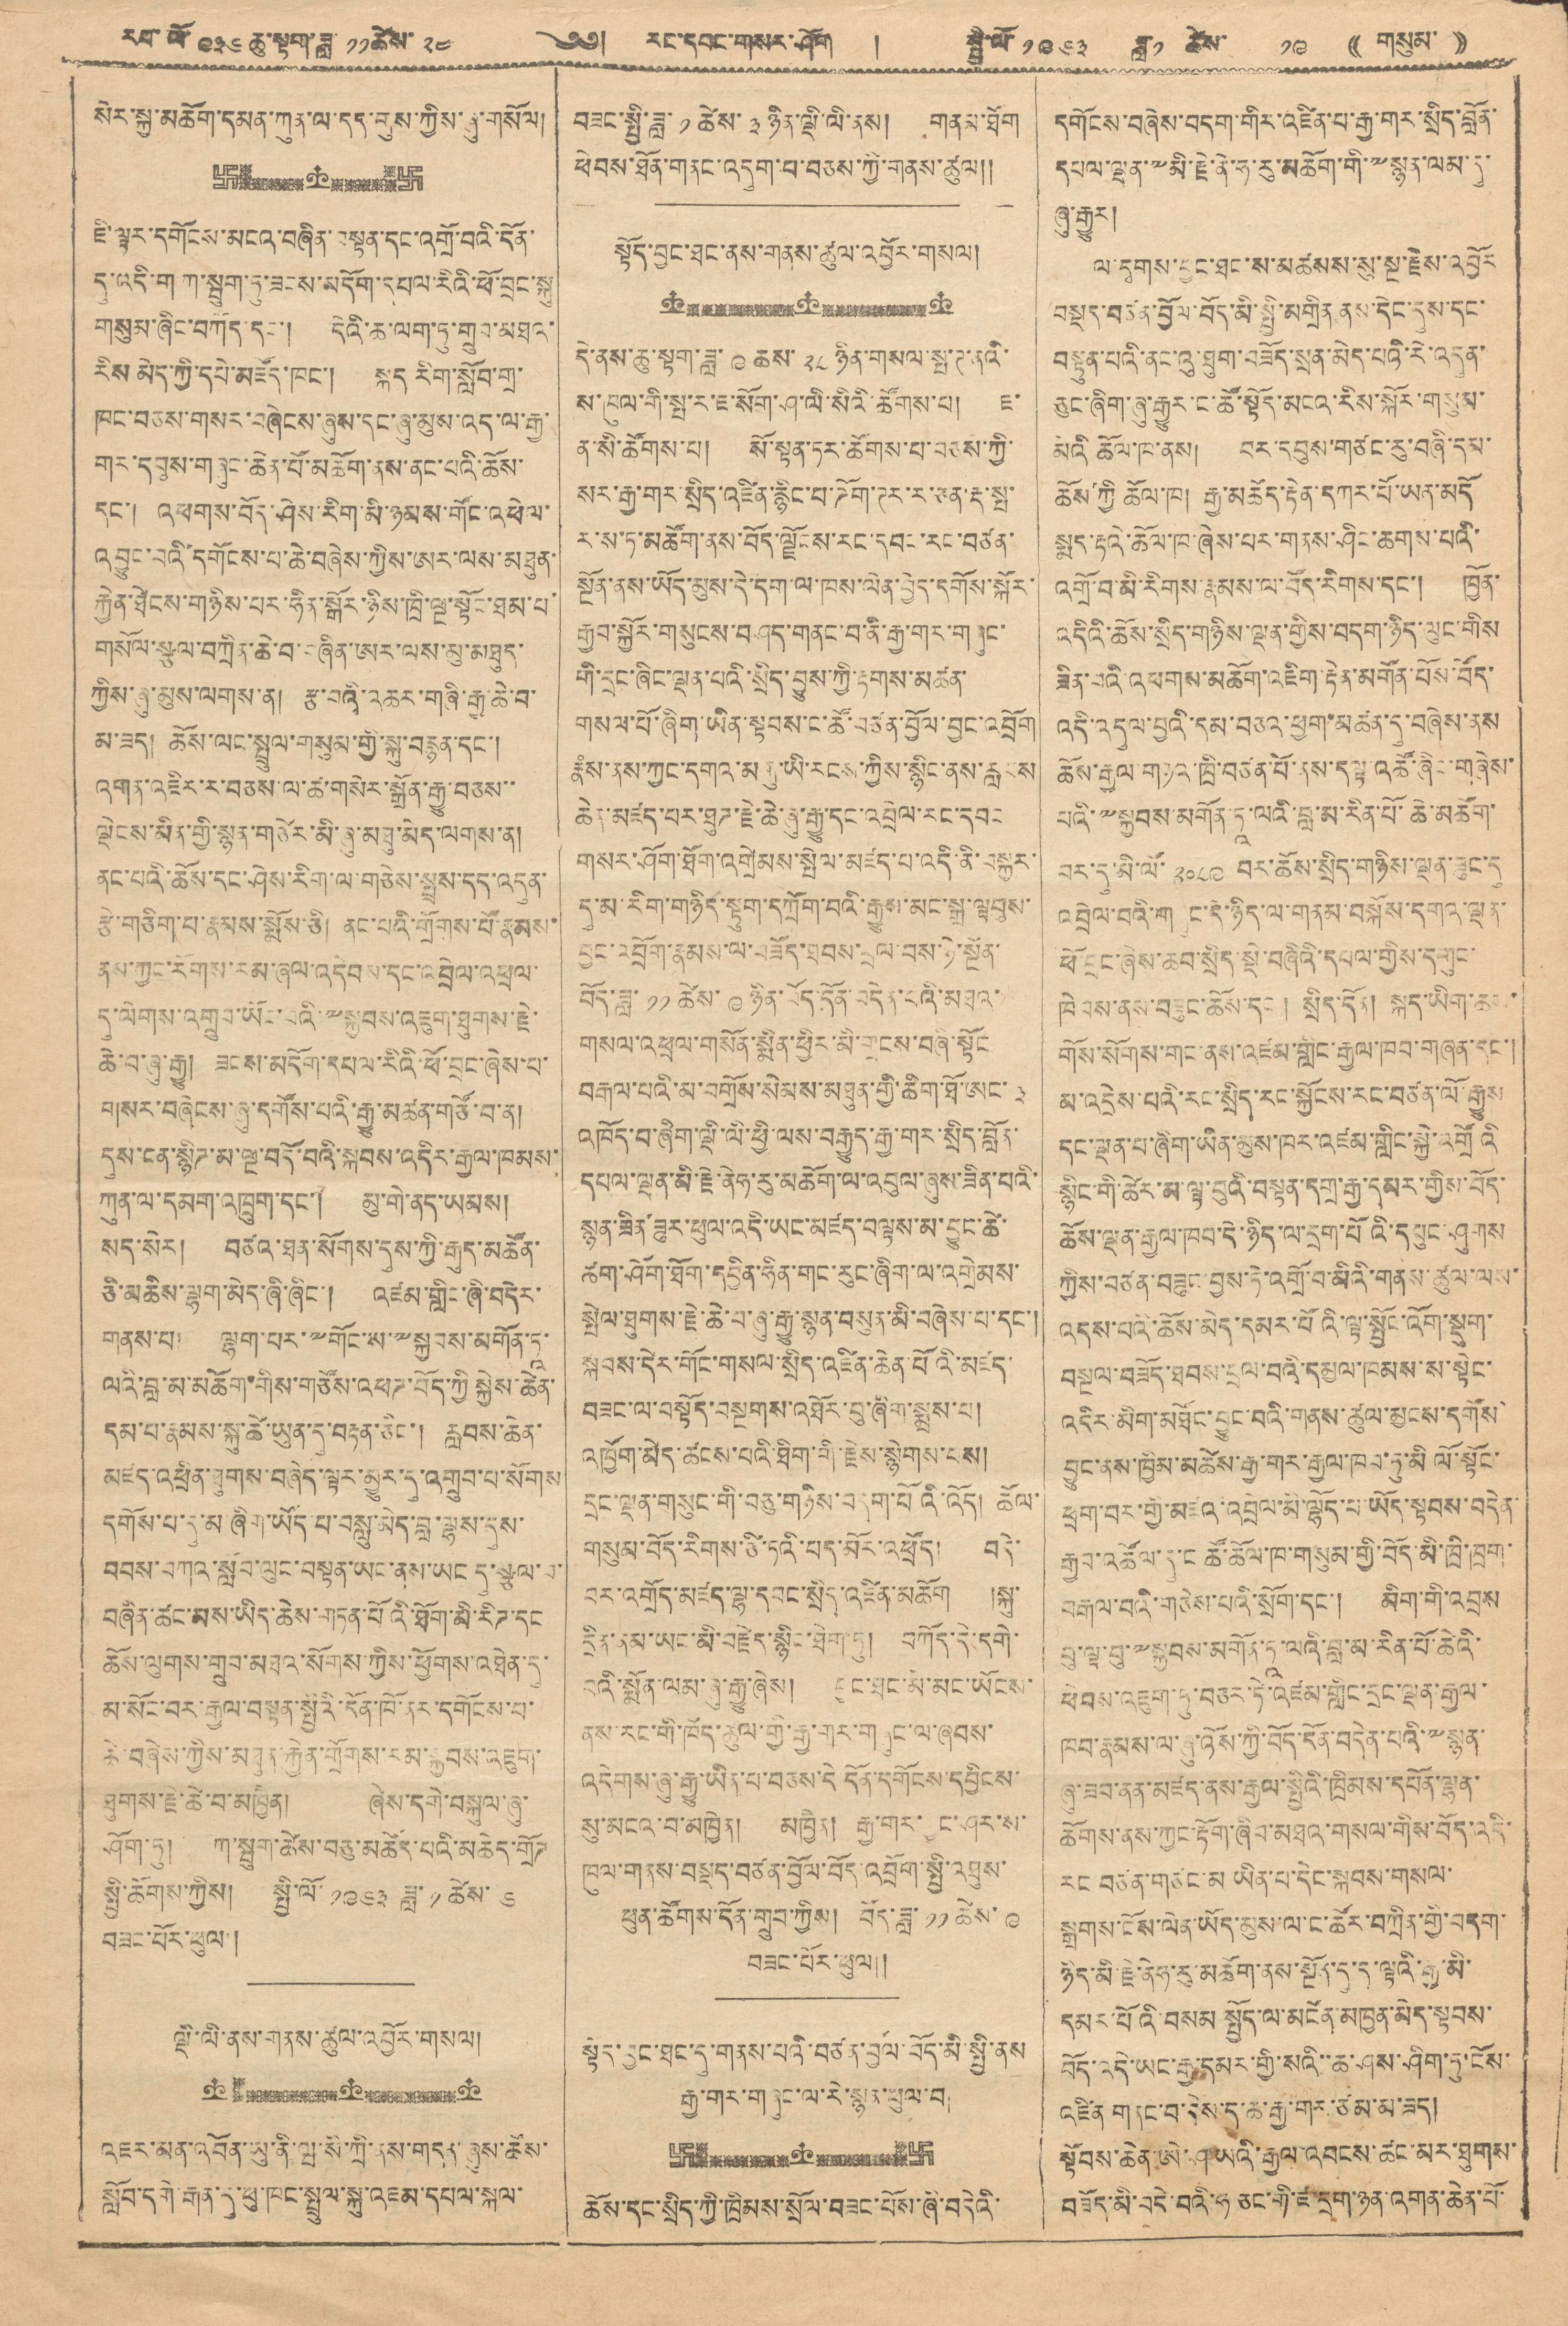རབ་ལོ་ ༩༣༦ ཆུ་སྟག་ཟླ་ ༡༡ ཚེས་ ༢༤ ༄༅། རང་དབང་གསར་ཤོག ། སྤྱི་ལོ་ ༡༩༦༣ ཟླ་ ༡ ཚེས་ ༡༩ (( གསུམ་ ))
སེར་སྐྱ་མཆོག་དམན་ཀུན་ལ་དད་གུས་ཀྱིས་ཞུ་གསོལ།
ཇི་ལྟར་དགོངས་མངའ་བཞིན་བསྟན་དང་འགྲོ་བའི་དོན་
དུ་འདི་ག་ཀ་སྦུག་ཏུ་ཟངས་མདོག་དཔལ་རིའི་ཕོ་བྲང་སྐུ
གསུམ་ཞིང་བཀོད་དང་། དེའི་ཆ་ལག་ཏུ་གྲུབ་མཐའ་
རིས མེད་ཀྱི་དཔེ་མཛོད་ཁང་། སྐད རིག་སློབ་གྲ་
ཁང་བཅས་གསར་བཞེངས་ཞུས་དང་ཞུ་མུས་འདི་ལ་རྒྱ་
གར་དབུས་གཞུང་ཆེན་པོ་མཆོག་ནས་ནང་པའི་ཆོས་
དང་། འཕགས་བོད་ཤེས་རིག་མི་ཉམས་གོང་འཕེལ་
འབྱུང་བའི་དགོངས་པ་ཆེ་བཞེས་ཀྱིས་ཨར་ལས་མཐུན་
རྐྱེན་ཐེངས་གཉིས་པར་ཧིན་སྒོར་ཉིས་ཁྲི་ལྔ་སྟོང་ཐམ་པ་
གསོལ་སྩལ་བཀྲིན་ཆེ་བ་བཞིན་ཨར་ལས་མུ་མཐུད་
ཀྱིས་ཞུ་མུས་ལགས་ན། རྩ་བའི་འཆར་གཞི་རྒྱ་ཆེ་བ་
མ་ཟད། ཆོས་ལང་སྤྲུལ་གསུམ་གྱི་སྐུ་བརྙན་དང་།
འགན་འཇིར་ར་བཅས་ལ་ཚ་གསེར་སྒྲོན་རྒྱུ་བཅས་་
ལྡེངས་མིན་གྱི་སྙན་གཙེར་མི་ཞུ་མཐུ་མེད་ལགས་ན།
ནང་པའི་ཆོས་དང་ཤེས་རིག་ལ་གཅེས་སྤྲས་དད་འདུན་
རྩེ་གཅིག་པ་རྣམས་སྨོས་ཅི། ནང་པའི་གྲོགས་པོ་རྣམས་
ནས་ཀྱང་རོགས་རམ་ཞལ་འདེབས་དང་འབྲེལ་འཕྲལ་
དུ་ལེགས་འགྲུབ་ཡོང་བའི་༸སྐྱབས་འཇུག་ཐུགས་རྗེ་
ཆེ་བ་ཞུ་རྒྱུ། ཟངས་མདོག་དཔལ་རིའི་ཕོ་བྲང་ཞེས་པ་
གསར་བཞེངས་ཞུ་དགོས་པའི་རྒྱུ་མཚན་གཙོ་བ་ན།
དུས་ངན་སྙིཊ་མ་ལྔ་བོད་པའི་སྐབས་འདིར་རྒྱལ་ཁམས་
ཀུན་ལ་དམག་འཁྲུག་དང་། མུ་གེ་ནད་ཡམས།
སད་སེར། བཙའ་ཐན་སོགས་དུས་ཀྱི་རྒུད་མཚོན་
ཅི་མཆིས་ལྷག་མེད་ཞི་ཞིང་། འཛམ་གླིང་ཞི་བདེར་
གནས་པ། ལྷག་པར་༸གོང་ས་༸སྐྱབས་མགོན་ཏཱ་
ལའི་བླ་མ་མཆོག་གིས་གཙོས་འཕཊ་བོད་ཀྱི སྐྱེས་ཆེན་
དམ་པ་རྣམས་སྐུ་ཚེ་ཡུལ་དུ་བརྟན་ཅིང་། རླབས་ཆེན་
མཛད་འཕྲིན་ཐུགས་བཞེད་ལྟར་མྱུར་དུ་འགྲུབ་པ་སོགས
དགོས་པ་དུ་མ་ཞིག་ཡོད་པ་བསླུ་མེད་བླ་ལྷས་དུས་
བབས་བཀའ་སློབ་ལུང་བསྟན་ཡང་ནས་ཡང དུ་སྩལ་བ་
བཞིན་ཚང་མས་ཡིད་ཆེས་གཏན་པོའི་ཐོག་མི་རིཊ་དང
ཆོས་ལུགས་གྲུབ་མཐའ་སོགས་ཀྱིས་ཕྱོགས་འཐེན་དུ་
མ་སོང་བར་རྒྱལ་བསྟན་སྤྱིའི་དོན་ཁོ་ནར་དགོངས་པ་
ཆེ་བཞེས་ཀྱིས་མཐུན་རྐྱེན་གྲོགས་རམ་སྐྱབས་འཇུག་
ཐུགས་རྗེ་ཆེ་བ་མཁྱེན། ཞེས་དགེ་བསྐུལ་ཞུ་
ཤོག་ཏུ། ཀ་སྦུག་ཚེས་བཅུ་མཆོད་པའི་མཆེད་གྲོཊ
སྤྱི་ཚོགས་ཀྱིས། སྤྱི་ལོ ༡༩༦༣ ཟླ་ ༡ ཚེས་ ༦
བཟང་པོར་ཕུལ།
ལྡི་ལི་ནས་གནས་ཚུལ་འབྱོར་གསལ།
འཇར་མན་འབོན་ཡུ་ནི་ལྦ་སི་ཀྲི་ནས་གདན་ཞུས་ཚོས་
སློབ་དགེ་རྒན་དུ་ཕུ་ཁང་སྤྲུལ་སྐུ་འཇམ་དཔལ་སྐལ་
བཟང་སྤྱི་ཟླ་ ༡ ཚེས་ ༣ ཉིན་ལྡི་ལི་ནས། གནམ་ཐོག
ཕེབས་ཐོན་གནང་འདུག་པ་བཅས་ཀྱི་གནས་ཚུལ།།
སྟོད་བྱང་ཐང་ནས་གནས་ཚུལ་འབྱོར་གསལ།
དེ་ནས་ཆུ་སྟག་ཟླ་ ༩ ཚེས་ ༢༨ ཉིན་གསལ་སྤ་ཊ་ནའི་
ས་ཁུལ་གི་སྤ་ར་ཇ་སོག་ཤ་ལི་སིའི་ཚོགས་པ། ཇ་
ན་སི་ཚོགས་པ། སོ་སྟན་ཏར་ཚོགས་པ་བཅས་ཀྱི་
སར་རྒྱ་གར་སྲིད་འཛིན་རྙིང་པ་ཌོག་ཊར་ར་ཅན་རྡ་སྤ་
ར་ས་ཏ་མཚོག་ནས་བོད་ལྗོངས་རང་དབང་རང་བཙན་
སྔོན་ནས་ཡོད་མུས་དེ་དག་ལ་ཁས་ལེན་བྱེད་དགོས་སྐོར་
རྒྱབ་སྐྱོར་གསུངས་བཤད་གནང་བ་ནི་རྒྱ་གར་གཞུང་
གི་དྲང་ཞིང་ལྡན་པའི་སྲིད་བྱུས་ཀྱི་རྟགས་མཚན་
གསལ་པོ་ཞིག་ཡིན་སྟབས་ང་ཚོ་བཙན་བྱོལ་བྱང་འབྲོག
རྣཾས་ན་ཀྱང་དགའ་མགུ་ཡི་རངས་ཀྱིས་སྙིང་ནས་རླབས་
ཆེན་མཛད་པར་ཐུཊ་རྗེ་ཆེ་ཞུ་རྒྱུ་དང་འབྲེལ་རང་དབང
གསར་ཤོག་ཐོག་འགྲེམས་སྤེལ་མཛད་པ་འདི་ནི་བསྐྱར་
དུ་མ་རིག་གཉིད་སྟུག་དཀྲོག་བའི་རྒྱུས་མང་སྒྲ་ལྟ བུས་
བྱང་འབྲོག་རྣམས་ལ་བཟོད་ཐབས་བྲལ་བས་ཉེ་སྔོན་
བོད་ཟླ་ ༡༡ ཚེས་ ༩ ཉིན་བོད་དོན་བདེན་པའི་མཐའ་
གསལ་འཕྲལ་གསོན་སྨིན་ཕྱིར་མི་གྲངས་བཞི་སྟོང
བརྒལ་པའི་མ་བགྲོས་སེམས་མཐུན་གྱི་ཆིག་ཐོ་ཨང་ ༣
འཁོད་པ་ཞིག་ལྡི་ལི་ཕྱི་ལས་བརྒྱུད་རྒྱ་གར་སྲིད་བློན་
དཔལ་ལྡན་མི་རྗེ་ནེཧ་རུ་མཆོག་ལ་འབུལ་ཞུས་ཟིན་པའི་
སྙན་ཟིན་ཟུར་ཕུལ་འདི་ཡང་མཛད་བལྟས་མ་བྱུང་ཚེ་
ཚག་ཤོག་ཐོག་དབྱིན་ཧིན་གང་རུང་ཞིག་ལ་འགྲེམས་
སྤེལ་ཐུགས་རྗེ་ཆེ་བ་ཞུ་རྒྱུ་སྙན་བསུན་མི་བཞེས་པ་དང་།
སྐབས་དེར་གོང་གསལ་སྲིད་འཛིན་ཆེན་པོའི་མཛད་
བཟང་བསྟོད་བསྔགས་འཐོར་བུ་ཞིག་སྨྲས་པ།
འཁྱོག་མེད་ཚངས་པའི་ཐིག་གི་རྗེས་སྙེགས་པས།
དྲང་ལྡན་གསུང་གི་བཅུ་གཉིས་བདག་པོའི་འོད། ཆོལ་
གསུམ་བོད་རིགས་ཙི་ཏའི་པད་མོར་འཕྲོད། བདེ་
བར་འགྲོད་མཛད་ལྷ་དབང་སྲིད་འཛིན་མཆོག །སྐུ་
དྲིན་ནམ་ཡང་མི་བརྗེད་སྙིང་ཐིག་ཏུ། བཀོད་དེ་དགེ་
བའི་སྨོན་ལམ་ཞུ་རྒྱུ་ཞེས། བྱང་ཐང་མི་མང་ཡོངས་
ནས་རང་གི་ཁོད་ཚུལ་གྱི་རྒྱ་གར་གཞུང་ལ་ཞབས་
འདེགས་ཞུ་རྒྱུ་ཡིན་པ་བཅས་དེ་དོན་དགོངས་དབྱིངས་
སུ་མངའ་བ་མཁྱེན། མཁྱིན། རྒྱ་གར་བྱང་ཤར་ས་
ཁུལ་གནས་བསྡད་བཙན་བྱོལ་བོད་འབྲོག་སྤྱི་འཐུས་
ཕུན་ཚོགས་དོན་གྲུབ་ཀྱིས། བོད་ཟླ་ ༡༡ ཚེས་ ༩
བཟང་པོར་ཕུལ།།
སྟོད་བྱང་ཐང་དུ་གནས་པའི་བཙན་བྱོལ་བོད་མི་སྤྱི་ནས་
རྒྱ་གར་གཞུང་ལ་རེ་སྙན་ཕུལ་བ།
ཆོས་དང་སྲིད་ཀྱི་ཁྲིམས་སྲོལ་བཟང་པོས་ཞི་བདེའི་
དགོངས་བཞེས་བདག་གིར་འཛིན་པ་རྒྱ་གར་སྲིད་བློན་
དཔལ་ལྡན་༸མི་རྗེ་ནེ་ཧ་རུ་མཆོག་གི་༸སྙན་ལམ་དུ་
ཞུ་རྒྱུར།
ལ་དྭགས་བྱང་ཐང་ས་མཚམས་སུ་སྔ་རྗེས་འབྱོར
བསྡད་བཙན་བྱོལ་བོད་མི་སྤྱི་མགྲིན ནས་དེང་དུས་དང་
བསྟུན་པའི་ནང་འུ་ཐུག་བཟོད་སྲན་མེད་པའི་རེ་འདུན་
ཅུང་ཞིག་ཞུ་རྒྱུར་ང་ཚོ་སྟོད་མངའ་རིས་སྐོར་གསུམ་
མིའི ཆོལ་ཁ་ནས། བར་དབུས་གཙང་རུ་བཞི་དམ་
ཆོས་ཀྱི ཆོལ་ཁ། རྒྱ་མཆོད་རྟེན་དཀར་པོ་ཡན་མདོ
སྨད་རྟའི་ཆོལ་ཁ་ཞེས་པར་གནས་ཤིང་ཆགས་པའི་
འགྲོ་བ་མི་རིགས་རྣམས་ལ་བོད་རིགས་དང་། ཁྱོན་
འདིའི་ཆོས་སྲིད་གཉིས་ལྡན་གྱིས་བདག་ཉིད་ལུང་གིས
ཟིན་བའི་འཕགས་མཆོག་འཇིག་རྟེན་མགོན་པོས་བོད་
འདི་འདུལ་བྱའི་དམ་བཅའ་ཕྱག་མཚན་དུ་བཞེས་ནས་
ཆོས་རྒྱལ་གཉའ་ཁྲི་བཙན་པོ་ནས་ད་ལྟ་འཚོ་ཞིང་གཞེས་
པའི་༸སྐྱབས་མགོན་ཏཱ་ལའི་བླ་མ་རིན་པོ་ཆེ་མཆོག་
བར་དུ་མི་ལོ་ ༢༠༨༩ བར་ཆོས་སྲིད་གཉིས་ལྡན་ཟུང་དུ
འབྲེལ་བའི་གཞུང་དེ་ཉིད་ལ་གནམ་བསྐོས་དགའ་ལྡན་
ཕོ་བྲང་ཞེས་ཆབ་སྲིད་སྡེ་བཞིའི་དཔལ་གྱིས་དགུང་
ཁེབས་ནས་བཟུང་ཆོས་དང་། སྲིད་དོན། སྐད་ཡིག་ཆས་
གོས་སོགས་གང་ནས་འཛམ་གླིང་རྒྱལ་ཁབ་གཞན་དང་།
མ་འདྲེས་པའི་རང་སྲིད་རང་སྐྱོངས་རང་བཙན་ལོ་རྒྱུས
དང་ལྡན་པ་ཞིག་ཡིན་མུས་ཁར་འཛམ་གླིང་སྐྱེ་འགྲོའི
སྙིང་གི་ཚེར་མ་ལྟ་བུའི་བསྟན་དགྲ་རྒྱ་དམར་གྱིས་བོད་
ཆོས་ལྡན་རྒྱལ་ཁབ་དེ་ཉིད་ལ་དྲག་པོའི་དཔུང་ཤུགས
ཀྱིས་བཙན་བཟུར་བྱས་ཏེ་འགྲོ་བ་མིའི་གནས་ཚུལ་ལས་
འདས་པའི་ཆོས་མེད་དམར་པོའི་ལྟ་སྤྱོང་འོག་སྡུག་
བསྔལ་བཟོད་ཐབས་བྲལ་བའི་དམྱལ་ཁམས་ས་སྟེང་
འདིར་མིག་མཐོང་བྱུང་བའི་གནས་ཚུལ་མྱངས་དགོས་
བྱུང་ནས་ཁྱིམ་མཚེས་རྒྱ་གར་རྒྱལ་ཁབ་ཏུ་མི ལོ་སྟོང་
ཕྲག་བར་གྱི་མཛའ་འབྲེལ་མི་ལྷོད་པ་ཡོད་སྟབས་བདེན་
རྒྱབ་འཚོལ་དུ་ང་ཚོ་ཚོལ་ཁ་གསུམ་གྱི་བོད་མི་ཁྲི་ཁྲག་
བརྒལ་བའི་གཅེས་པའི་སྲོག་དང་། མིག་གི་འབྲས
བུ་ལྟ་བུ་༸སྐྱབས་མགོན་ཏཱ་ལའི་བླ་མ་རིན་པོ་ཆེའི་
ཕེབས་འཇུག་ཏུ་བཅར་ཏེ་འཛམ་གླིང་དྲང་ལྡན་རྒྱལ་
ཁབ་རྣམས་ལ་ཞུ་འོས་གྱི་བོད་དོན་བདེན་པའི་༸སྙན་
ཞུ་ཟབ་ནན་མཛད་ནས་རྒྱལ་སྤྱིའི་ཁྲིམས་དཔོན་ལྷན་
ཆོགས་ནས་ཀྱང་རྟོག་ཞིབ་མཐའ་གསལ་གིས་བོད་འདི་
རང བཙན་གཙང་མ ཡིན་པ་དེང་སྐབས་གསལ་
སྒྲགས་ངོས་ལེན་ཡོད་མུས་ལ་ང་ཚོར་བཀྲིན་གྱི་བདག་
ཉིད་མི་རྗེ་ནེཧ་རུ་མཆོག་ནས་སྔོན་དུ་ད་ལྟའི་རྒྱ་མི་
དམར་པོའི་བསམ སྤྱོད་ལ་མངོན་མཁྱན་མེད་སྟབས་
བོད་འདི་ཡར་རྒྱ་དམར་གྱི་སའི་་ཆ་ཤས་ཤིག་ཏུ་ངོས་
འཛིན གནང་བ་དེས་ད་ཆ་རྒྱ་གར་ཙམ་མ་ཟད།
སྟོབས་ཆེན་ཨེ་ཤ་ཡའི་རྒྱལ་འབངས་ཚང་མར་ཐུགས་
མཟོད་མི་བདེ་བའི་ཧ ཅང་གི་ཛ་དྲག་ཉན་འགན་ཆེན་པོ་
